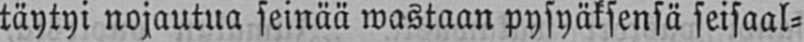täytyi nojautua seinää wastaan pysyäksensä seikaa-
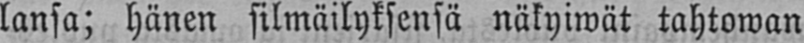lansa; hänen silmäilyksensä näkyiwät tahtowan
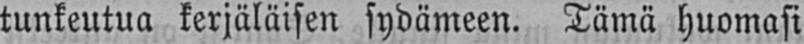tunkeutua kerjäläisen sydämeen. Tämä huomasi
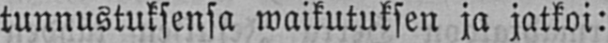tunnustuksensa waikutuksen ja jatkoi:
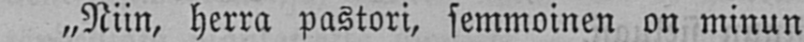„Niin, herra pastori, semmoinen on minun
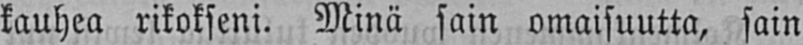kauhea rikokseni. Minä sain omaisuutta, sain
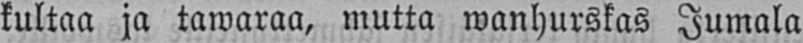kultaa ja tawaraa, mutta wanhurskas Jumala
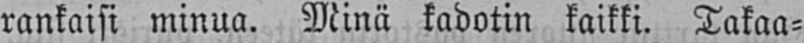rankaisi minua. Minä kadotin kaikki. Takaa-
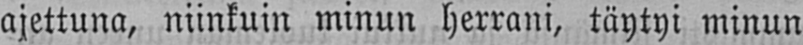ajettuna, niinkuin minun herrani, täytyi minun
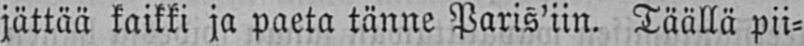jättää kaikki ja paeta tänne Paris'iin. Täällä pii-
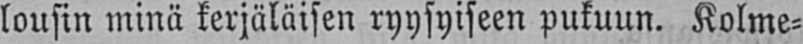lousin minä kerjäläisen ryysyiseen pukuun. Kolme-
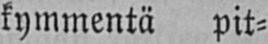kymmentä pit-
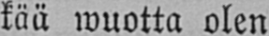kää wuotta olen
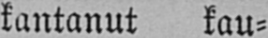kantanut kau-
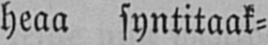heaa syntitaak-
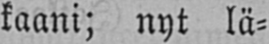kaani; nyt lä-
